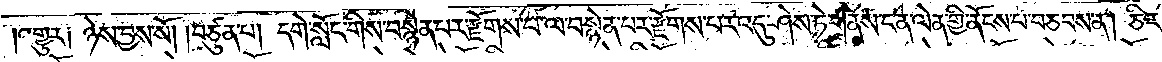།འགྱུར། ཉེས་བྱས་སོ། །བཙུན་པ། དགེ་སློང་གིས་བསྙེན་པར་རྫོགས་པ་ལ་བསྙེན་པར་རྫོགས་པར་འདུ་ཤེས་ཏེ་གནས་ངན་ལེན་གྱི་ནོངས་པ་བཅབས་ན། ཅིར་
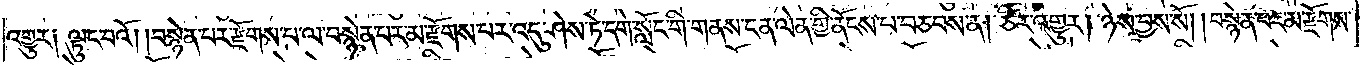འགྱུར༑ ལྟུང་བའོ། །བསྙེན་པར་རྫོགས་པ་ལ་བསྙེན་པར་མ་རྫོགས་པར་འདུ་ཤེས་ཏེ་དགེ་སློང་གི་གནས་ངན་ལེན་གྱི་ནོངས་པ་བཅབས་ན། ཅིར་འགྱུར། ཉེས་བྱས་སོ། །བསྙེན་པར་མ་རྫོགས་
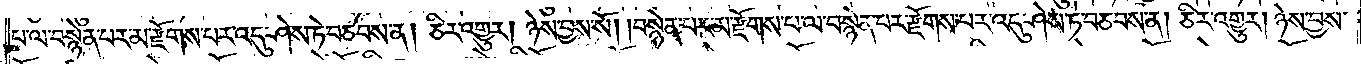པ་ལ་བསྙེན་པར་མ་རྫོགས་པར་འདུ་ཤེས་ཏེ་བཅབས་ན། ཅིར་འགྱུར། ཉེས་བྱས་སོ། །བསྙེན་པར་མ་རྫོགས་པ་ལ་བསྙེན་པར་རྫོགས་པར་འདུ་ཤེས་ཏེ་བཅབས་ན། ཅིར་འགྱུར། ཉེས་བྱས་
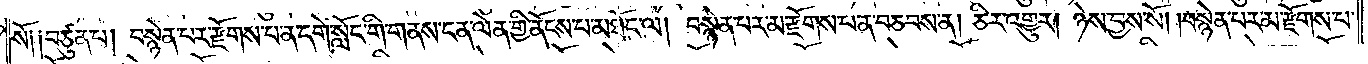སོ༑ ༑བཙུན་པ། བསྙེན་པར་རྫོགས་པ་ན་དགེ་སློང་གི་གནས་ངན་ལེན་གྱི་ནོངས་པ་མཐོང་ལ། བསྙེན་པར་མ་རྫོགས་པ་ན་བཅབས་ན། ཅིར་འགྱུར། ཉེས་བྱས་སོ། །བསྙེན་པར་མ་རྫོགས་པ་
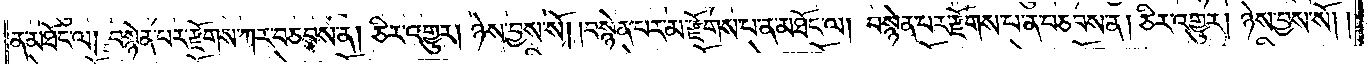ན་མཐོང་ལ། བསྙེན་པར་རྫོགས་ཀར་བཅབས་ན། ཅིར་འགྱུར། ཉེས་བྱས་སོ། །བསྙེན་པར་མ་རྫོགས་པ་མ་མཐོང་ལ། བསྙེན་པར་རྫོགས་པ་ན་བཅབས་ན། ཅིར་འགྱུར། ཉེས་བྱས་སོ། །
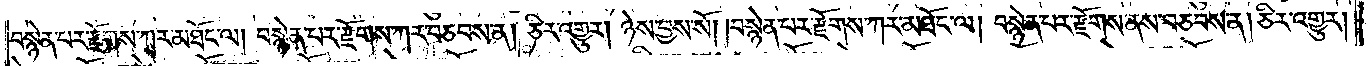བསྙེན་པར་རྫོགས་ཀར་མཐོང་ལ། བསྙེན་པར་རྫོགས་ཀར་བཅབས་ན། ཅིར་འགྱུར། ཉེས་བྱས་སོ། །བསྙེན་པར་རྫོགས་ཀར་མཐོང་ལ། བསྙེན་པར་རྫོགས་ནས་བཅབས་ན། ཅིར་འགྱུར།
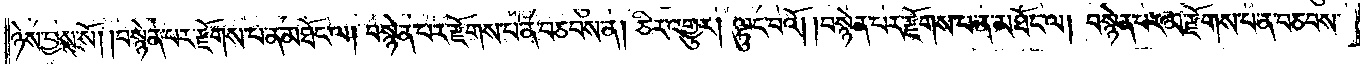ཉེས་བྱས་སོ། །བསྙེན་པར་རྫོགས་པ་ན་མཐོང་ལ། བསྙེན་པར་རྫོགས་པ་ན་བཅབས་ན། ཅིར་འགྱུར། ལྟུང་བའོ། །བསྙེན་པར་རྫོགས་པ་ན་མཐོང་ལ། བསྙེན་པར་མ་རྫོགས་པ་ན་བཅབས་
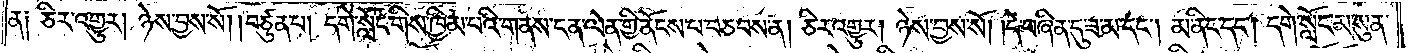ན༑ ཅིར་འགྱུར། ཉེས་བྱས་སོ། །བཙུན་པ། དགེ་སློང་གིས་ཁྱིམ་པའི་གནས་ངན་ལེན་གྱི་ནོངས་པ་བཅབས་ན། ཅིར་འགྱུར། ཉེས་བྱས་སོ། །དེ་བཞིན་དུ་ཟ་མ་དང༌། མ་ནིང་དང༌། དགེ་སློང་མ་སུན་
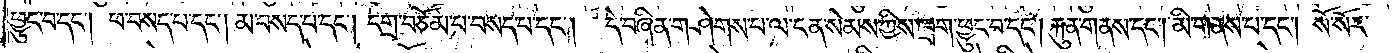ཕྱུང་བ་དང༌། པ་བསད་པ་དང༌། མ་བསད་པ་དང༌། དགྲ་བཅོམ་པ་བསད་པ་དང༌། དེ་བཞིན་གཤེགས་པ་ལ་ངན་སེམས་ཀྱིས་ཁྲག་ཕྱུང་བ་དང༌། རྐུན་གནས་དང༌། མི་གནས་པ་དང༌། སོ་སོར་
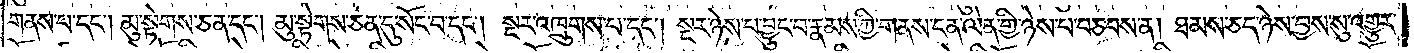གནས་པ་དང༌། མུ་སྟེགས་ཅན་དང༌། མུ་སྟེགས་ཅན་དུ་སོང་བ་དང༌། སྔར་འཁྲུགས་པ་དང༌། སྔར་ཉེས་པ་བྱུང་བ་རྣམས་ཀྱི་གནས་ངན་ལེན་གྱི་ཉེས་པ་བཅབས་ན། ཐམས་ཅད་ཉེས་བྱས་སུ་འགྱུར་
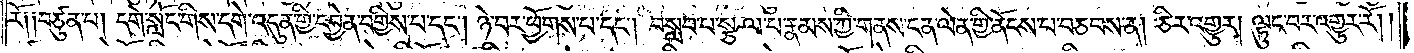རོ༑ ༑བཙུན་པ། དགེ་སློང་གིས་དགེ་འདུན་གྱི་དབྱེན་བགྱིས་པ་དང༌། ཉེ་བར་ཕྱོགས་པ་དང༌། བསླབ་པ་སྩལ་པ་རྣམས་ཀྱི་གནས་ངན་ལེན་གྱི་ནོངས་པ་བཅབས་ན། ཅིར་འགྱུར། ལྟུང་བར་འགྱུར་རོ། །
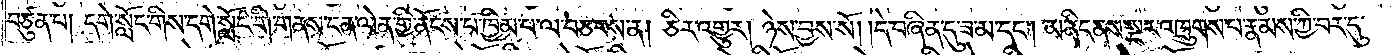བཙུན་པ། དགེ་སློང་གིས་དགེ་སློང་གི་གནས་ངན་ལེན་གྱི་ནོངས་པ་ཁྱིམ་པ་ལ་བཅབས་ན། ཅིར་འགྱུར། ཉེས་བྱས་སོ། །དེ་བཞིན་དུ་ཟ་མ་དང༌། མ་ནིང་ནས་སྔར་འཁྲུགས་པ་རྣམས་ཀྱི་བར་དུ་
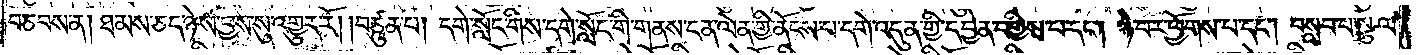བཅབས་ན། ཐམས་ཅད་ཉེས་བྱས་སུ་འགྱུར་རོ། །བཙུན་པ། དགེ་སློང་གིས་དགེ་སློང་གི་གནས་ངན་ལེན་གྱི་ནོངས་པ་དགེ་འདུན་གྱི་དབྱེན་བགྱིས་པ་དང༌། ཉེ་བར་ཕྱོགས་པ་དང༌། བསླབ་པ་སྩལ་
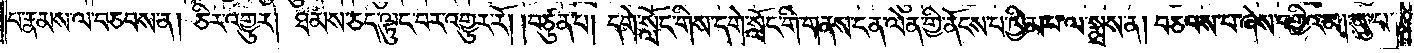པ་རྣམས་ལ་བཅབས་ན། ཅིར་འགྱུར། ཐམས་ཅད་ལྟུང་བར་འགྱུར་རོ། །བཙུན་པ། དགེ་སློང་གིས་དགེ་སློང་གི་གནས་ངན་ལེན་གྱི་ནོངས་པ་ཁྱིམ་པ་ལ་སྨྲས་ན། བཅབས་པ་ཞེས་བགྱིའམ། ཨུ་པ་
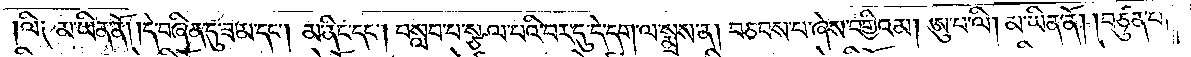།ལི༑ མ་ཡིན་ནོ། །དེ་བཞིན་དུ་ཟ་མ་དང༌། མ་ནིང་དང༌། བསླབ་པ་སྩལ་པའི་བར་དུ་དེ་དག་ལ་སྨྲས་ན། བཅབས་པ་ཞེས་བགྱིའམ། ཨུ་པ་ལི། མ་ཡིན་ནོ། །བཙུན་པ་
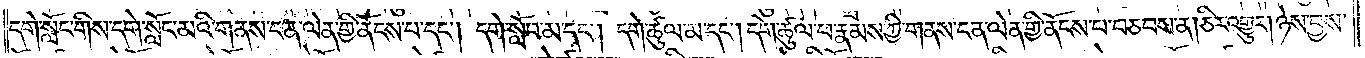དགེ་སློང་གིས་དགེ་སློང་མའི་གནས་ངན་ལེན་གྱི་ནོངས་པ་དང༌། དགེ་སློབ་མ་དང༌། དགེ་ཚུལ་མ་དང༌། དགེ་ཚུལ་ཕ་རྣམས་ཀྱི་གནས་ངན་ལེན་གྱི་ནོངས་པ་བཅབས་ན། ཅིར་འགྱུར། ཉེས་བྱས་
